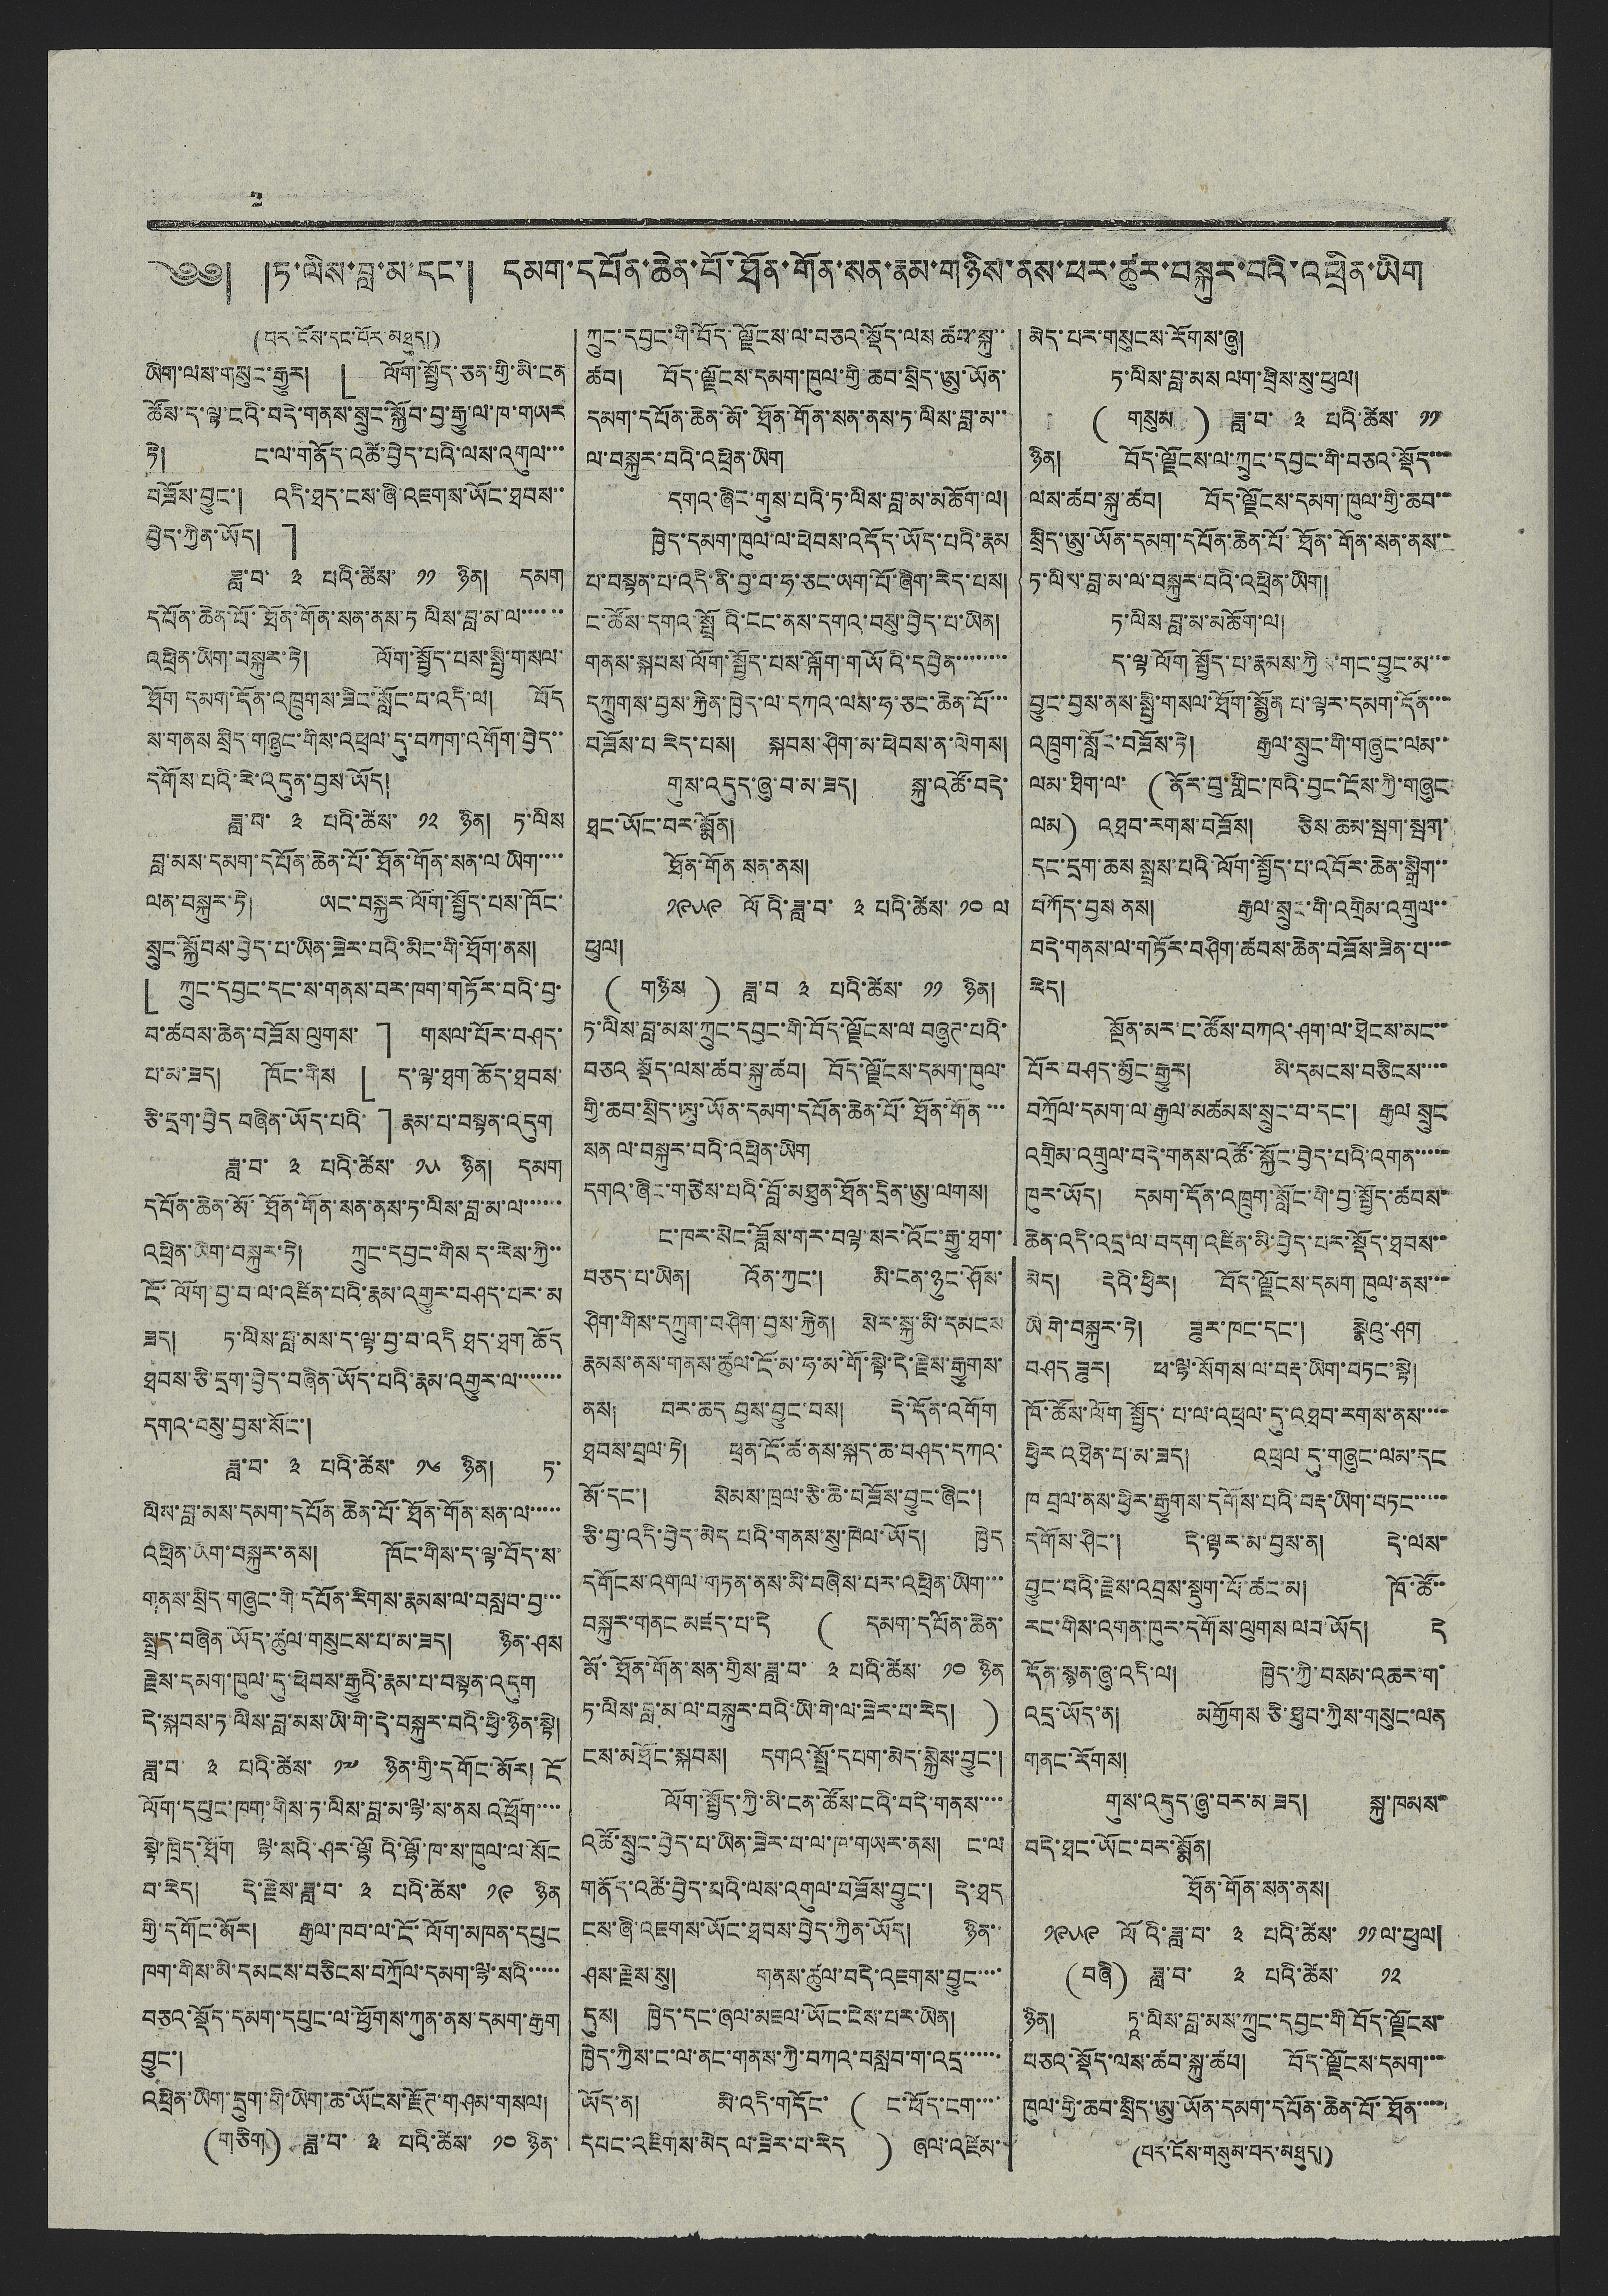2
༄༅། །ཏ་ལིས་བླ་མ་དང་། དམག་དཔོན་ཆེན་པོ་ཐོན་གོན་སན་རྣམ་གཉིས་ནས་ཕར་ཚུར་བསྐུར་བའི་འཕྲིན་ཡིག
(པར་ངོས་དང་པོར་མཐུད།)
ཡིག་ལས་གསུང་རྒྱུར། 「ལོག་སྦྱོད་ཅན་གྱི་མི་ངན
ཚོས་ད་ལྟ་ངའི་བདེ་གནས་སྲུང་སྐྱོབ་བྱ་རྒྱུ་ལ་ཁ་གཡར
ཏེ། ང་ལ་གནོད་འཚེ་བྱེད་པའི་ལས་འགུལ་་་
བཟོས་བྱུང་། འདི་ཐད་ངས་ཞི་འཇགས་ཡོང་ཐབས་་
བྱེད་ཀྱིན་ཡོད།」
ཟླ་བ་ ༣ པའི་ཚེས་ ༡༡ ཉིན། དམག
དཔོན་ཆེན་པོ་ཐོན་གོན་སན་ནས་ཏ ལིས་བླ་མ་ལ་་་་་་
འཕྲིན་ཡིག་བསྐུར་ཏེ། ལོག་སྤྱོད་པས་སྤྱི་གསལ་
ཐོག དམག་དོན་འཁྲུགས་ཟིང་སློང་བ་འདི་ལ། བོད
ས་གནས སྲིད་གཞུང་གིས་འཕྲལ་དུ་བཀག་འགོག་བྱེད་་
དགོས་པའི་རེ་འདུན་བྱས་ཡོད།
ཟླ་བ་ ༣ པའི་ཚེས་ ༡༢ ཉིན། ཏ་ལིས
བླ་མས་དམག་དཔོན་ཆེན་པོ་ཐོན་གོན་སན་ལ་ཡིག་་་་
ལན་བསྐུར་ཏེ། ཡང་བསྐྱར་ལོག་སྤྱོད་པས་ཁོང་
སྲུང་སྐྱོབས་བྱེད་པ་ཡིན་ཟེར་བའི་མིང་གི་ཐོག་ནས།
「ཀྲུང་དབྱང་དང་ས་གནས་བར་ཁག་གཏོར་བའི་བྱ་
བ་ཚབས་ཆེན་བཟོས་ལུགས་」 གསལ་པོར་བཤད་
པ་མ་ཟད། ཁོང་གིས 「 ད་ལྟ་ཐག ཆོད་ཐབས་
ཅི་དྲག་བྱེད བཞིན་ཡོད་པའི་」རྣམ་པ་བསྟན་འདུག
ཟླ་བ་ ༣ པའི་ཚེས་ ༡༥ ཉིན། དམག
དཔོན་ཆེན་མོ་ཐོན་གོན་སན་ནས་ཏ་ལིས་བླ་མ་ལ་་་་་་
འཕྲིན་ཡིག་བསྐུར་ཏེ། ཀྲུང་དབྱང་གིས ད་རེས་ཀྱི་་
ངོ་ལོག་བྱ་བ་ལ་འཛིན་པའི་རྣམ་འགྱུར་བཤད་པར་མ
ཟད། ཏ་ལིས་བླ་མས་ད་ལྟ་བྱ་བ་འདི ཐད་ཐག ཆོད
ཐབས་ཅི་དྲག་བྱེད་བཞིན་ཡོད་པའི་རྣམ་འགྱུར་ལ་་་་་་་
དགའ་བསུ་བྱས་སོང་།
ཟླ་བ་ ༣ པའི་ཚེས་ ༡༦ ཉིན། ཏ་
ལིས་བླ་མས་དམག་དཔོན་ཆེན་པོ་ཐོན་གོན་སན་ལ་་་་་
འཕྲིན་ཡིག་བསྐུར་ནས། ཁོང་གིས་ད་ལྟ་བོད་ས་
གནས་སྲིད གཞུང་གི་དཔོན་རིགས་རྣམས་ལ་བསླབ་བྱ་་་
སྤྲད་བཞིན ཡོད་ཚུ་གསུངས་པ་མ་ཟད། ཉིན་ཤས
རྗེས་དམག་ཁུལ་དུ་ཕེབས་རྒྱུའི་རྣམ་པ་བསྟན་འདུག
དེ་སྐབས་ཏ་ལིས་བླ་མས་ཡི་གེ་བསྐུར་བའི་ཕྱི་ཉིན་སྟེ།
ཟླ་བ་ ༣ པའི་ཚེས་ ༡༧ ཉིན་གྱི་དགོང་མོར། ངོ
ལོག་དཔུང་ཁག་གིས་ཏ་ལིས་བླ་མ་ལྷ་ས་ནས འཕྲོག་་་་
སྟེ་ཁྲིད་ཐོག ལྷ་སའི་ཤར་ལྷོའི་ལྷོ་ཁ་ས་ཁུལ་ལ་སོང
བ་རེད། དེ་རྗེས་ཟླ་བ་ ༣ པའི་ཚེས་ ༡༩ ཉིན
གྱི་དགོང་མོར། རྒྱལ་ཁབ་ལ་ངོ་ལོག་མཁན་དཔུང
ཁག་གིས་མི་དམངས་བཅིངས་བཀྲོལ་དམག་ལྷ་སའི་་་་་
བཅའ་སྡོད་དམག་དཔུང་ལ་ཕྱོགས་ཀུན་ནས་དམག་རྒྱག
བྱུང་།
འཕྲིན་ཡིག་དྲུག་གི་ཡིག་ཆ་ཡོངས་རྫོཊ་གཤམ་གསལ།
(གཅིག) ཟླ་བ་ ༣ པའི་ཚེས་ ༡༠ ཉིན་
ཀྲུང་དབྱང་གི་བོད་ལྗོངས་ལ་བཅའ་སྡོད་ལས ཚབ་སྐུ་་
ཚབ། བོད་ལྗོངས་དམག་ཁུལ་གྱི་ཆབ་སྲིད་ཨུ་ཡོན་
དམག་དཔོན་ཆེན་མོ་ཐོན་གོན་སན་ནས་ཏ་ལིས་བླ་མ་་
ལ་བསྐུར་བའི་འཕྲིན་ཡིག
དགའ་ཞིང་གུས་པའི་ཏ་ལིས་བླ་མ་མཆོག་ལ།
ཁྱེད་དམག་ཁུལ་ལ་ཕེབས་འདོད་ཡོད་པའི་རྣམ
པ་བསྟན་པ་འདི་ནི་བྱ་བ་ཧ་ཅང་ཡག་པོ་ཞིག་རེད་པས།
ང་ཚོས་དགའ་སྤྲོའི་ངང་ནས་དགའ་བསུ་བྱེད་པ་ཡིན།
གནས་སྐབས ལོག་སྤྱོད་པས་ལྐོག་གཡོའི་དབྱེན་་་་་་་་
དཀྲུགས་བྱས་རྐྱིན་ཁྱེད་ལ་དཀའ་ལས་ཧ་ཅང་ཆེན་པོ་་་
བཟོས་པ་རེད་པས། སྐབས་ཤིག་མ་ཕེབས་ན་ལེགས།
གུས་འདུད་ཞུ་བ་མ་ཟད། སྐུ་འཚོ་བདེ་
ཐང་ཡོང་བར་སྨོན།
ཐོན་གོན སན་ནས།
༡༩༥༩ ལོའི་ཟླ་བ་ ༣ པའི་ཚེས་ ༡༠ ལ
ཕུལ།
( གཉིས ) ཟླ་བ་ ༣ པའི་ཚེས་ ༡༡ ཉིན།
ཏ་ལིས་བླ་མས་ཀྲུང་དབྱང་གི་བོད་ལྗོངས་ལ བཞུཊ་པའི་
བཅའ སྡོད་ལས་ཚབ་སྐུ་ཚབ། བོད་ལྗོངས་དམག་ཁུལ་
གྱི་ཆབ་སྲིད་ཨུ་ཡོན་དམག་དཔོན་ཆེན་པོ་ཐོན་གོན་་་
སན ལ་བསྐུར་བའི་འཕྲིན་ཡིག
དགའ་ཞིང་གཙེས་པའི་བློ་མཐུན་ཐོན་དྲིན་ཨུ་ལགས།
ང་ཁར་སེང་ཟློས་གར་བལྟ་སར་འོང་རྒྱུ་ཐག་
བཅད་པ་ཡིན། འོན་ཀྱང་། མི་ངན་ཉུང་ཤོས་
ཤིག་གིས་དཀྲུག་བཤིག་བྱས་རྐྱིན། སེར་སྐྱ་མི་དམངས
རྣམས་ནས་གནས་ཚུལ་ངོ་མ་ཧ་མ་གོ་སྟེ་དེ་རྗེས་རྒྱུགས་
ནས། བར་ཆད བྱས་བྱུང་བས། དེ་དོན་འགོག
ཐབས་བྲལ་ཏེ། ཕྲན་ངོ་ཚ་ནས་སྐད་ཆ་བཤད་དཀའ་
མོ་དང་། སེམས་ཁྲལ་ཅི་ཆེ་བཟོས་བྱུང་ཞིང་།
ཅི་བྱ་འདི་བྱེད་མེད པའི་གནས་སུ་ཁེལ་ཡོད། ཁྱེད
དགོངས་འགལ་གཏན་ནས་མི་བཞེས་པར་འཕྲིན་ཡིག་་་
བསྐུར་གནང མཛད་པ་དེ ( དམག་དཔོན་ཆེན་
མོ་ཐོན་གོན་སན་གྱིས་ཟླ་བ་ ༣ པའི་ཚེས་ ༡༠ ཉིན
ཏ་ལིས་བླ་མ་ལ་བསྐུར་བའི་ཡི་གེ་ལ་ཟེར་བ་རེད། )
ངས་མཐོང་སྐབས། དགའ་སྤྲོ་དཔག་མེད་སྐྱེས་བྱུང་།
ལོག་སྤྱོད་ཀྱི་མི་ངན་ཚོས་ངའི་བདེ་གནས་་་་
འཚོ་སྲུང་བྱེད་པ་ཡིན་ཟེར་པ་ལ་ཁ་གཡར་ནས། ང་ལ
གནོད་འཚེ་བྱེད་པའི་ལས་འགུལ་བཟོས་བྱུང་། དེ་ཐད
ངས་ཞི་འཇགས་ཡོང་ཐབས་བྱེད་ཀྱིན་ཡོད། ཉིན་
ཤས་རྗེས་སུ། གནས་ཚུལ་བདེ་འཇགས་བྱུང་་་་
དུས། ཁྱེད་དང་ཞལ་མཇལ་ཡོང་ངེས་པར་ཡིན།
ཁྱིད་ཀྱིས་ང་ལ་ནང་གནས་ཀྱི་བཀའ་བསླབ་ག་འདྲ་་་་་་
ཡོད་ན། མི་འདི་གདོང་ ( ང་ཕོད་ངག་་་་
དབང་འཇིགས་མེད ལ་ཟེར་བ་རེད ) ཞལ་འཛེམ་
མེད་པར་གསུངས་རོགས་ཞུ།
ཏ་ལིས་བླ་མས ལག་བྲིས་སུ་ཕུལ།
( གསུམ ) ཟླ་བ་ ༣ པའི་ཚེས་ ༡༡
ཉིན། བོད་ལྗོངས་ལ་ཀྲུང་དབྱང་གི་བཅའ་སྡོད་་་
ལས་ཚབ་སྐུ་ཚབ། བོད་ལྗོངས་དམག་ཁུལ་གྱི་ཆབ་་
སྲིད་ཨུ་ཡོན་དམག་དཔོན་ཆེན་པོ་ཐོན་གོན་སན་ནས་་
ཏ་ལིས་བླ་མ་ལ་བསྐུར་བའི་འཕྲིན་ཡིག།
ད་ལྟ་ལོག སྤྱོད་པ་རྣམས་ཀྱིས་གང་བྱུང་མ་་་
བྱུང་བྱས་ནས་སྤྱི་གསལ་ཐོག་སྨྱོན པ་ལྟར་དམག་དོན་་་་
འཁྲུག་སློང་བཟོས་ཏེ། རྒྱལ་སྲུང་གི་གཞུང་ལམ་་
ལམ་ཐིག་ལ་ (ནོར་བུ་གླིང་ཁའི་བྱང་ངོས་ཀྱི་གཞུང
ལམ) འཐབ་རགས་བཟོས། ཅིས་ཆམ་སྦག་སྦག་
དང་དྲག་ཆས སྤྲས་པའི་ལོག་སྤྱོད་པ་འབོར་ཆེན་སྒྲིག་་
བཀོད་བྱས ནས། རྒྱལ་སྲུང་གི་འགྲིམ་འགྲུལ་་
བདེ་གནས་ལ་གཏོར་བཤིག་ཚབས་ཆེན་བཟོས་ཟིན་པ་་་
རེད།
ཏ་ལིས བླ་མ་མཆོག་ལ།
སྔོན་མར་ང་ཚོས་བཀའ་ཤག་ལ་ཐེངས་མང་་
པོར་བཤད་མྱོང་རྒྱུར། མི་དམངས་བཅིངས་་་་
བཀྲོལ་དམག་ལ་རྒྱལ་མཚམས་སྲུང་བ་དང་། རྒྱལ སྲུང
འགྲིམ་འགྲུལ་བདེ་གནས་འཚོ་སྐྱོང་བྱེད་པའི་འགན་་་་་
ཁུར་ཡོད། དམག་དོན་འཁྲུག་སློང་གི་བྱ་སྤྱོད་ཚབས་
ཆེན་འདི་འདྲ་ལ་བདག་འཛིན་མི་བྱེད་པར་སྡོད་ཐབས་་
མེད། དེའི་ཕྱིར། བོད་ལྗོངས་དམག ཁུལ་ནས་་་
ཡི་གེ་བསྐུར་ཏེ། ཟུར་ཁང་དང་། སྣེའུ་ཤག
བཤད ཟུར། ཕ་ལྷ་སོགས་ལ་བརྡ་ཡིག་བཏང་སྟེ།
ཁོ་ཚོས་ལོག སྤྱོད་པ་ལ་འཕྲལ་དུ་འཐབ་རགས་ནས་་་་
ཕྱིར འཐེན་པ་མ་ཟད། འཕྲལ དུ་གཞུང་ལམ་དང
ཁ བྲལ་ནས་ཕྱིར་རྒྱུགས་དགོས་པའི་བརྡ་ཡིག་བཏང་་་་་
དགོས་ཤིང་། དེ་ལྟར་མ་བྱས་ན། དེ་ལས་
བྱུང་བའི་རྗེས་འབྲས་སྡུག་པོ་ཚང་མ། ཁོ་ཚོ་་
རང་གིས་འགན་ཁུར་དགོས་ལུགས ལབ་ཡོད། དེ
དོན་སྙན་ཞུ་འདི་ལ། ཁྱེད་ཀྱི་བསམ་འཆར་ག་
འདྲ་ཡོད་ན། མགྱོགས ཅི་ཐུབ་ཀྱིས་གསུང་ལན
གནང་རོགས།
གུས་འདུད་ཞུ་བར་མ་ཟད། སྐུ་ཁམས་
བདེ་ཐང་ཡོང་བར་སྨོན།
ཐོན་གོན་སན་ནས།
༡༩༥༩ ལོའི་ཟླ་བ་ ༣ པའི་ཚེས་ ༡༡ ལ་ཕུལ།
(བཞི) ཟླ་བ་ ༣ པའི་ཚེས་ ༡༢
ཉིན། ཏཱ་ལིས་བླ་མས་ཀྲུང་དབྱང་གི་བོད་ལྗོངས་
བཅའ་སྡོད་ལས་ཚབ་སྐུ་ཚབ། བོད་ལྗོངས་དམག་་་
ཁུལ་གྱི་ཆབ་སྲིད་ཨུ་ཡོན་དམག་དཔོན་ཆེན་པོ་ཐོན་་་་
(པར་ངོས་གསུམ་པར་མཐུད།)
